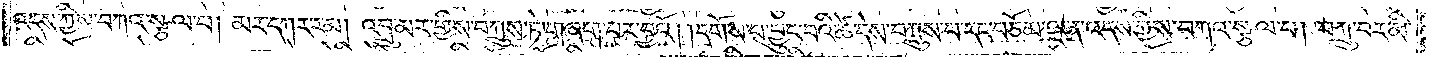འདས་ཀྱིས་བཀའ་སྩལ་པ། མར་དཀར་རམ། འབྲུ་མར་གྱིས་བཀྲུས་ཏེ་གཞག་པར་བྱའོ། །དགོས་པ་བྱུང་བའི་ཚེ་དེས་བཀྲུས་པ་དང་བཅོམ་ལྡན་འདས་ཀྱིས་བཀའ་སྩལ་པ། བཀྲུ་བར་མི་
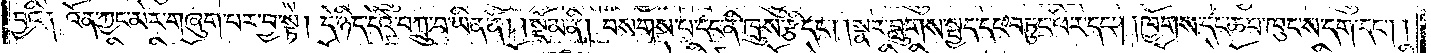བྱའི། འོན་ཀྱང་མེར་གཞུག་པར་བྱ་སྟེ། དེ་ཉིད་དེའི་བཀྲུ་བ་ཡིན་ནོ།    །སྡོམ་ནི། བསགས་པ་དང་ནི་ཁྲུས་རྩི་དང༌། །སྣར་བླུགས་སྤྱད་དང་བཏུང་ཕོར་དང༌། །ཁྱོགས་དང་ཆབ་ཁུང་ས་དག་དང༌། །
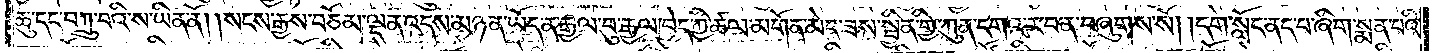ཆུ་དང་བཀྲུ་བའི་ས་ཡིན་ནོ། །སངས་རྒྱས་བཅོམ་ལྡན་འདས་མཉན་ཡོད་ན་རྒྱལ་བུ་རྒྱལ་བྱེད་ཀྱི་ཚལ་མགོན་མེད་ཟས་སྦྱིན་གྱི་ཀུན་དགའ་ར་བ་ན་བཞུགས་སོ། །དགེ་སློང་ནད་པ་ཞིག་སྨན་པའི་
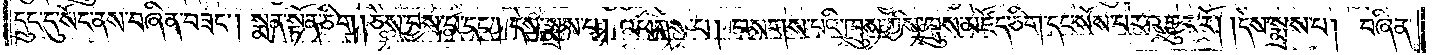དྲུང་དུ་སོང་ནས་བཞིན་བཟང༌། སྨན་སྟོན་ཅིག །ཅེས་བྱས་པ་དང༌། དེས་སྨྲས་པ། འཕགས་པ། བསགས་པའི་ཁྲུས་ཀྱིས་ཁྲུས་མཛོད་ཅིག་དང་སོས་པར་འགྱུར་རོ། །དེས་སྨྲས་པ། བཞིན་
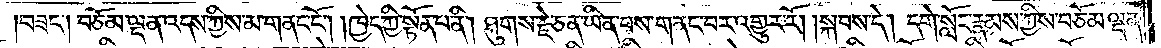བཟང༌། བཅོམ་ལྡན་འདས་ཀྱིས་མ་གནང་ངོ༌། །ཁྱེད་ཀྱི་སྟོན་པ་ནི། ཐུགས་རྗེ་ཅན་ཡིན་པས་གནང་བར་འགྱུར་རོ། །སྐབས་དེ། དགེ་སློང་རྣམས་ཀྱིས་བཅོམ་ལྡན་
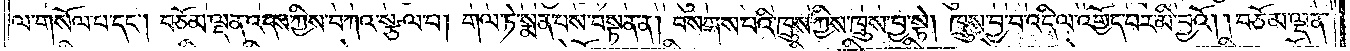ལ་གསོལ་པ་དང༌། བཅོམ་ལྡན་འདས་ཀྱིས་བཀའ་སྩལ་པ། གལ་ཏེ་སྨན་པས་བསྟན་ན། བསགས་པའི་ཁྲུས་ཀྱིས་ཁྲུས་བྱ་སྟེ། ཁྲུས་བྱ་བ་འདི་ལ་འགྱོད་པར་མི་བྱའོ། །བཅོམ་ལྡན་
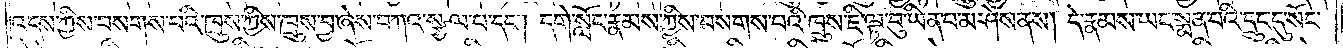འདས་ཀྱིས་བསགས་པའི་ཁྲུས་ཀྱིས་ཁྲུས་བྱ་ཞེས་བཀའ་སྩལ་པ་དང༌། དགེ་སློང་རྣམས་ཀྱིས་བསགས་པའི་ཁྲུས་ཇི་ལྟ་བུ་ཡིན་པ་མ་ཤེས་ནས། དེ་རྣམས་ཡང་སྨན་པའི་དྲུང་དུ་སོང་
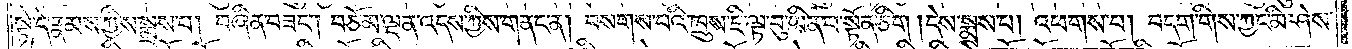སྟེ་དེ་རྣམས་ཀྱིས་སྨྲས་པ། བཞིན་བཟང༌། བཅོམ་ལྡན་འདས་ཀྱིས་གནང་ན། བསགས་པའི་ཁྲུས་ཇི་ལྟ་བུ་ཡིན་པ་སྟོན་ཅིག །དེས་སྨྲས་པ། འཕགས་པ། བདག་གིས་ཀྱང་མི་ཤེས་
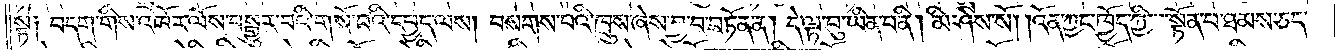སྟེ༑ བདག་གིས་འཁོར་ལོས་བསྒྱུར་བའི་གསོ་བའི་དཔྱད་ལས། བསགས་པའི་ཁྲུས་ཞེས་བྱ་བ་བཏོན་ན། དེ་ལྟ་བུ་ཡིན་པ་ནི། མི་ཤེས་སོ། །འོན་ཀྱང་ཁྱོད་ཀྱི་སྟོན་པ་ཐམས་ཅད་
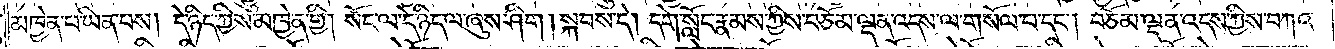མཁྱེན་པ་ཡིན་པས། དེ་ཉིད་ཀྱིས་མཁྱེན་གྱི། སོང་ལ་དེ་ཉིད་ལ་ཞུས་ཤིག །སྐབས་དེ། དགེ་སློང་རྣམས་ཀྱིས་བཅོམ་ལྡན་འདས་ལ་གསོལ་པ་དང༌། བཅོམ་ལྡན་འདས་ཀྱིས་བཀའ་
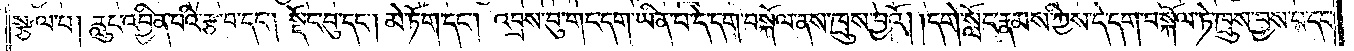སྩལ་པ། རླུང་འབྱིན་པའི་རྩ་བ་དང༌། སྡོང་བུ་དང༌། མེ་ཏོག་དང༌། འབྲས་བུ་གང་དག་ཡིན་པ་དེ་དག་བསྐོལ་ནས་ཁྲུས་བྱའོ། །དགེ་སློང་རྣམས་ཀྱིས་དེ་དག་བསྐོལ་ཏེ་ཁྲུས་བྱས་པ་དང་
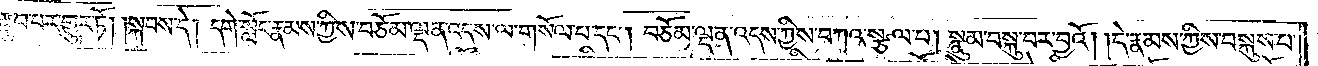དེ་རྣམས་རྩུབ་པར་གྱུར་ཏོ། །སྐབས་དེ། དགེ་སློང་རྣམས་ཀྱིས་བཅོམ་ལྡན་འདས་ལ་གསོལ་པ་དང༌། བཅོམ་ལྡན་འདས་ཀྱིས་བཀའ་སྩལ་པ། སྣུམ་བསྐུ་བར་བྱའོ། །དེ་རྣམས་ཀྱིས་བསྐུས་པ་
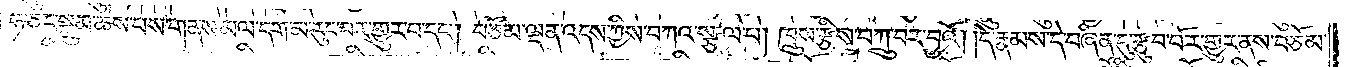དང༌། ཧ་ཅང་སྣུམ་ཆེས་པས་གནས་མལ་དག་མ་རུང་བར་གྱུར་པ་དང༌། བཅོམ་ལྡན་འདས་ཀྱིས་བཀའ་སྩལ་པ། ཁྲུས་རྩིས་བཀྲུ་བར་བྱའོ། །དེ་རྣམས་དེ་བཞིན་དུ་རྩུབ་བོར་གྱུར་ནས་བཅོམ་
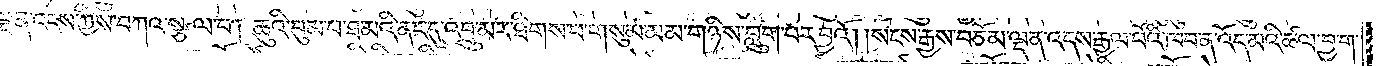ལྡན་འདས་ཀྱིས་བཀའ་སྩལ་པ། ཆུའི་བུམ་པ་ཐ་མའི་ནང་དུ་འབྲུ་མར་ཐིགས་པ་གསུམ་མམ་གཉིས་བླུག་པར་བྱའོ། །སངས་རྒྱས་བཅོམ་ལྡན་འདས་རྒྱལ་པོའི་ཁབ་ན་འོད་མའི་ཚལ་བྱ་ག་
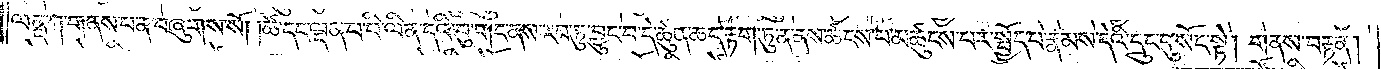ལནྡ་ཀ་གནས་པ་ན་བཞུགས་སོ། །ཚེ་དང་ལྡན་པ་པི་ལིན་དའི་བུ་གང་ནས་རབ་ཏུ་བྱུང་བ་དེ་ཚུན་ཆད་རྟག་ཏུ་ན་ནས་ཚངས་པ་མཚུངས་པར་སྤྱོད་པ་རྣམས་དེའི་དྲུང་དུ་སོང་སྟེ། གནས་བརྟན།
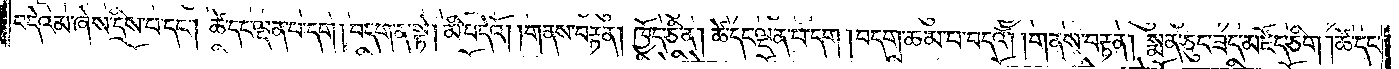བདེའམ་ཞེས་དྲིས་པ་དང༌། ཚེ་དང་ལྡན་པ་དག །བདག་ན་སྟེ། མི་བདེའོ། །གནས་བརྟན། ཁྱོད་ཅི་ན། ཚེ་དང་ལྡན་པ་དག །བདག་ཆམ་པ་བདའོ། །གནས་བརྟན། སྨན་ཅུང་ཟད་མཛོད་ཅིག །ཚེ་དང་
